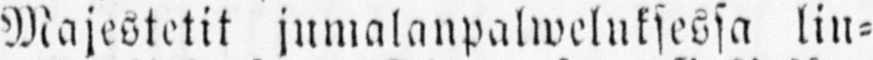Majestetit jumalanpalweluksessa lin-
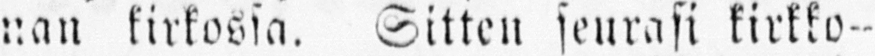nan kirkossa. Sitten seurasi kirkko-
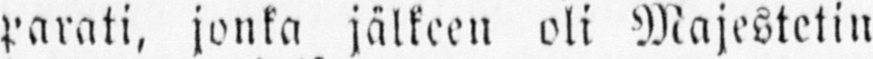parati, jonka jälkeen oli Majestetin
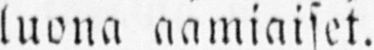luona aamiaiset.
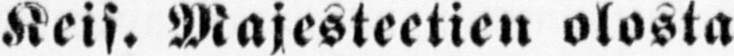Keis. Majesteetien olosta
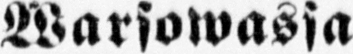Warsowassa
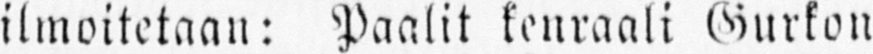ilmoitetaan: Paalit kenraali Gurkon
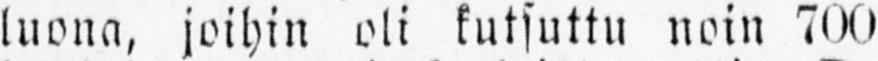luona, joihin oli kutsuttu noin 700
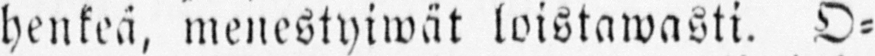henkeä, menestyiwät loistawasti. O-
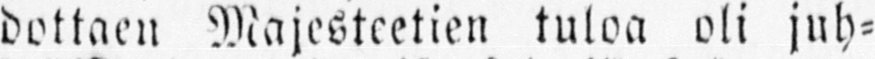dottaen Majesteetien tuloa oli juh-
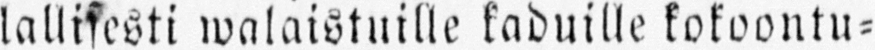lallisesti walaistuille kaduille kokoontu-
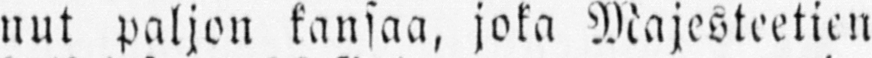nut paljon kansaa, joka Majesteetien
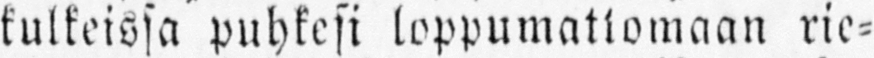kulkeissa puhkesi loppumattomaan rie-
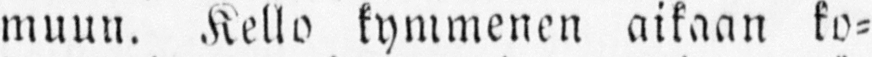muun. Kello kymmenen aikaan ko-
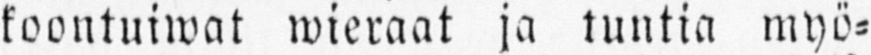koontuiwat wieraat ja tuntia myö-
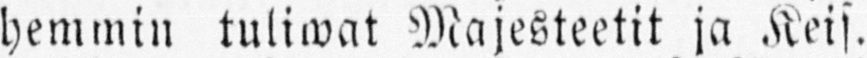hemmin tuliwat Majesteetit ja Keis.
